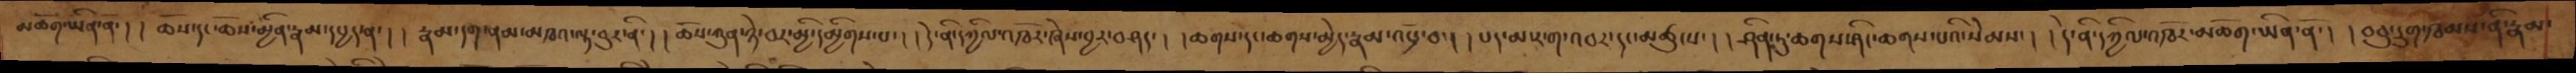མཆོག་ཡིན་ནོ་། །ཆོས་དང་ཆོས་མྱིན་རྣམ་དཔྱད་ན་། །རྣམ་དག་ནམ་མཁའ་ལྟ་བུར་ནི་། །ཆོས་ཀུན་ཉེ་བར་མྱི་དམྱིགས་པ་། །དེ་ནི་དཀྱིལ་འཁོར་ཞེས་བྱར་བཤད་། །ཆགས་དང་ཆགས་མྱེད་རྣམ་འཕྲོ་བ་། །པད་མ་ར་ག་འབར་དང་མཚུངས་། །ཤིན་ཏུ་ཆགས་ཤིང་ཆགས་པའི་སེམས་། །དེ་ནི་དཀྱིལ་འཁོར་མཆོག་ཡིན་ནོ་། །བཅུ་དྲུག་ཁམས་ནི་རྣམ་
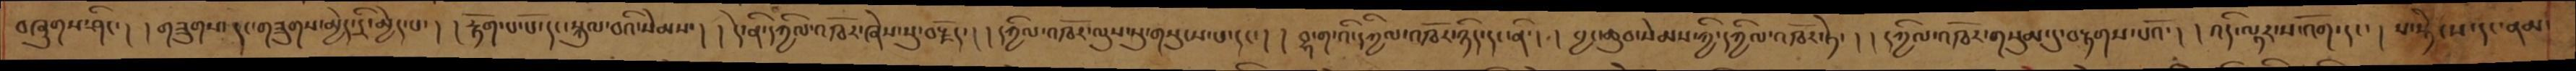བཞུགས་ཤིང་། །གཟུགས་དང་གཟུགས་མྱེད་དྲི་མྱེད་པ་། །རྟོག་པ་པོ་དང་སྐུལ་བའི་སེམས་། །དེ་ནི་དཀྱིལ་འཁོར་ཞེས་སུ་བརྗོད་། །དཀྱིལ་འཁོར་ལུས་སུ་གསུངས་པ་དང་། །བྷ་གའི་དཀྱིལ་འཁོར་ཉིད་དང་ནི་། །བྱང་ཆུབ་སེམས་ཀྱི་དཀྱིལ་འཁོར་སྟེ་། །དཀྱིལ་འཁོར་གསུམ་དུ་བརྟགས་པའོ་། །འདི་ལྟར་ས་འོག་དང་། ས་སྟེངས་དང་ནམ་
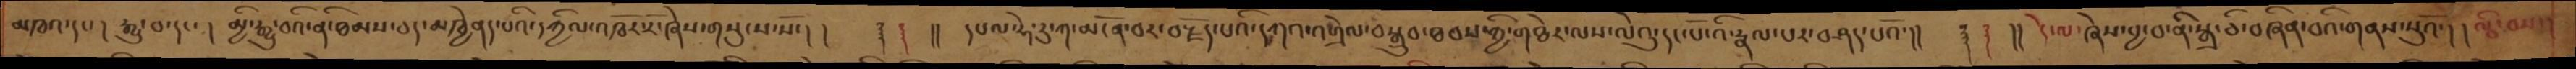མཁའ་དང་། རྒྱུ་བ་དང་། མྱི་རྒྱུ་བའི་ནི་ཐམས་ཅད་མཁྱེནད་པའི་དཀྱིལ་འཁོར་རོ་ཞེས་གསུངས་སོ་།། ࿑ ࿑ །། དཔལ་ཧེ་རུ་ཀ་མངོན་བར་བརྗོད་པའི་དཀའ་འགྲེལ་བསྒྲུབ་ཐབས་ཀྱི་གཐེར་ལས་ལེའུ་དང་པོ་འི་རྣལ་པར་བཤད་པའོ་།། ࿑ ࿑  །། དེ་ལ་ཞེས་བྱ་བ་ནི་སྒྲ་ཅི་བཞིན་བའི་གནས་སུའོ་། །ལྕི་བས་
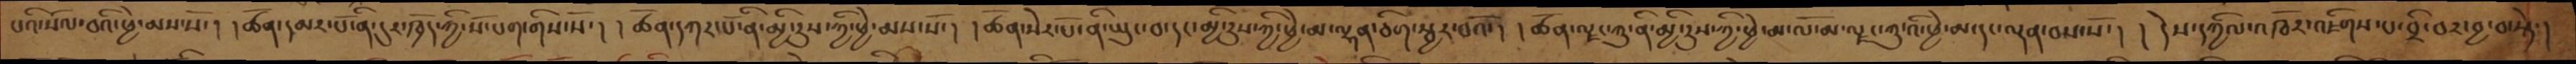པའི་སོལ་བའི་ཕྱེ་མས་སོ་། །ཚོན་དམར་པོ་ནི་དུར་ཁྲོད་ཀྱི་སོ་པག་གིས་སོ་། །ཚོན་དཀར་པོ་ནི་མྱི་རུས་ཀྱི་ཕྱེ་མས་སོ་། །ཚོན་སེར་པོ་ནི་ཡུང་བ་དང་མྱི་རུས་ཀྱི་ཕྱེ་མ་ལྷན་ཅིག་སྦྱར་བའོ་། །ཚོན་ལྗང་ཀུ་ནི་མྱི་རུས་ཀྱི་ཕྱེ་མ་ལོ་མ་ལྗང་ཀུ་འི་ཕྱེ་མ་དང་ལྡན་བས་སོ་། །དེས་དཀྱིལ་འཁོར་འཇིགས་པ་བྲི་བར་བྱ་བ་སྟེ་།
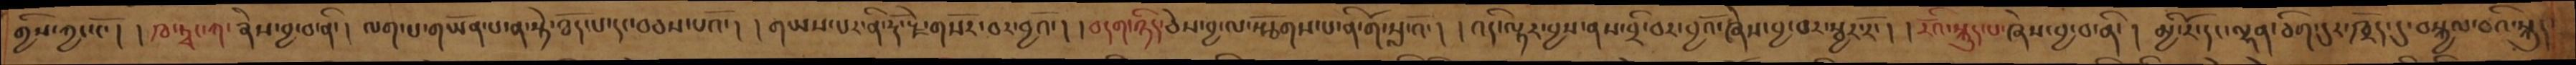གྱིས་ཀྱང་ངོ་། །ཁ་ཏྭང་ཀ་ཞེས་བྱ་བ་ནི་། ལག་པ་གཡོན་པ་ན་སྟེ་ཐོད་པ་དང་བཅས་པའོ་། །གཡས་པར་ནི་རྡོ་རྗེ་གསོར་བར་བྱའོ་། །བདག་ཉིད་ཅེས་བྱ་ལ་སྩོགས་པ་ནི་གོ་སླ་འོ་། །འདི་ལྟར་བྱས་ནས་བྲི་བར་བྱའོ་ཞེས་བྱ་བར་སྦྱར་རོ་། །རོའི་སྐུད་པ་ཞེས་བྱ་བ་ནི་། མྱི་རོ་དང་ལྷན་ཅིག་དུར་ཁྲོད་དུ་བསྐྱལ་བའི་སྐུད་
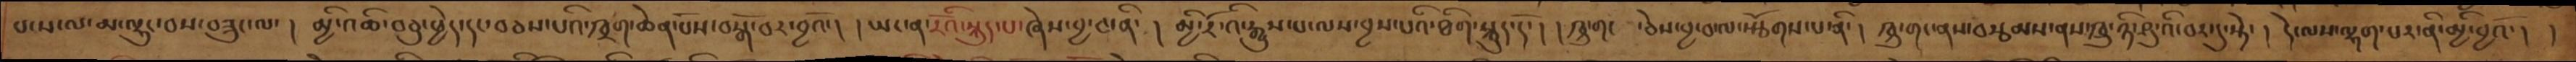པ་ས་ལ་མ་ལྷུང་བས་བཟུང་ལ་། མྱི་འཆི་བཅུ་ཕྱེད་དང་བཅས་པའི་ཁྲག་ཆེན་པོས་བསྒོ་བར་བྱའོ་། །ཡང་ན་རོའི་སྐུད་པ་ཞེས་བྱ་བ་ནི་། མྱི་རོ་འི་རྒྱུས་པ་ལས་བྱས་པའི་ཐིག་སྐུད་དོ་། །ཁྲུ་གང་ ཅེས་བྱ་བ་ལ་སྩོགས་པ་ནི་། ཁྲུ་གང་ནས་བརྩམས་ནས་ཁྲུ་ཉི་ཤུ་འི་བར་དུ་སྟེ་། དེ་ལས་ལྷག་པར་ནི་མྱི་བྱའོ་། །
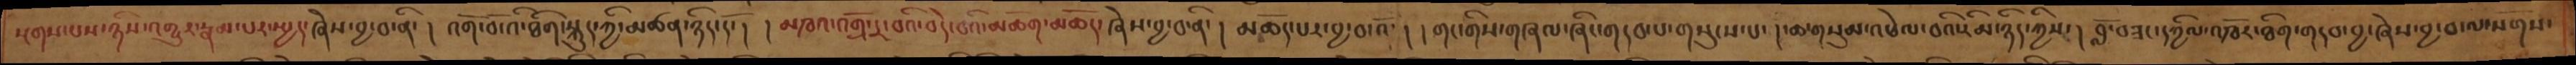སྔགས་པས་ཉིས་འགྱུར་རྣམ་པར་སྤྱད་ཞེས་བྱ་བ་ནི་། འགོ་བོ་འི་ཐིག་སྐུད་ཀྱི་མཚན་ཉིད་དོ་། །མཁའ་འགྲོ་དྲ་བའི་བདེ་བའི་མཆོག་མཆོད་ཞེས་བྱ་བ་ནི་། མཆོད་པར་བྱ་བ་འོ་། །གང་གིས་གཞལ་ཞིང་གདབ་པ་གསུངས་པ་ །་ཆ་གསུམ་འཕེལ་བའི་རིམ་ཉིད་ཀྱིས་། བློ་བཟང་དཀྱིལ་འཁོར་ཐིག་གདབ་བྱ་ཞེས་བྱ་བ་ལ་སོགས་
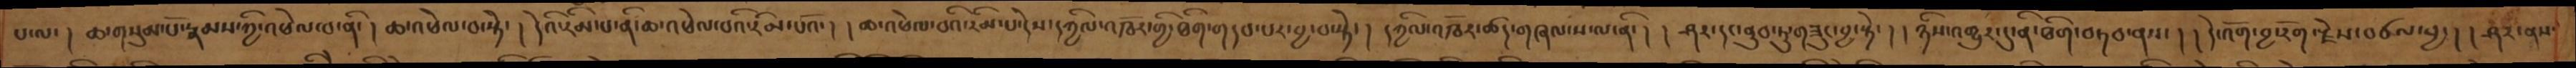པ་ལ་། ཆ་གསུམ་པོ་རྣམས་ཀྱི་འཕེལ་བ་ནི་། ཆ་འཕེལ་བ་སྟེ་། དེའི་རིམ་པ་ནི་ཆ་འཕེལ་བའི་རིམ་པའོ་། །ཆ་འཕེལ་བའི་རིམ་པ་དེས་དཀྱིལ་འཁོར་གྱི་ཐིག་གདབ་པར་བྱ་བ་སྟེ་་།  དཀྱིལ་འཁོར་ཚད་གཞལ་ས་ལ་ནི་། །ཤར་དང་ནུབ་ཏུ་གཟུང་བྱ་སྟེ་། །ཉིས་འགྱུར་དུ་ནི་ཐིག་བཏབ་ནས་། །དེ་འོག་བྱ་རོག་རྗེས་བཙལ་བྱ་། །ཤར་ནས་
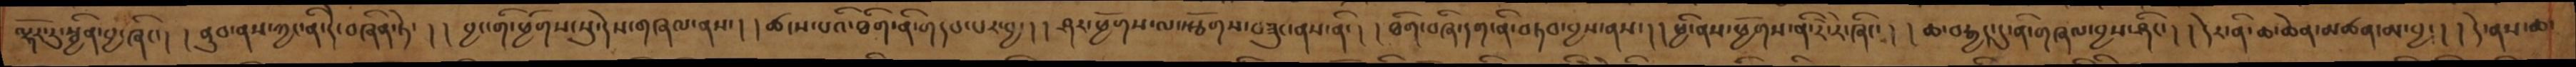ལྷོར་རུ་སྦྱིན་བྱ་ཞིང་།  ནུབ་ནས་ཀྱང་ནི་དེ་བཞིན་ཏེ་། །བྱང་གི་ཕྱོགས་སུ་དེས་གཞལ་ནས་། ཚངས་པའི་ཐིག་ནི་གདབ་པར་བྱ་། །ཤར་ཕྱོགས་ལ་སྩོགས་བཟུང་ནས་ནི་།  །ཐིག་བཞི་དག་ནི་བཏབ་བྱས་ནས་། །ཕྱི་ནས་ཕྱོགས་ནི་རེ་རེ་ཞིང་། །ཆ་བརྒྱད་དུ་ནི་གཞལ་བྱས་ཤིང་། །དེར་ནི་ཆ་ཆེན་མཚན་མ་བྱ་། །དེ་ནས་ཆ་
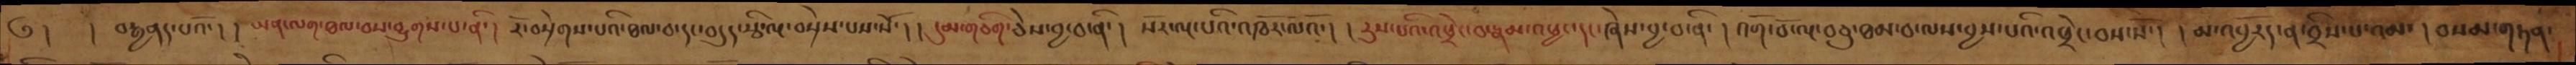༄།  །བརྒྱནད་པའོ་། ཡན་ལག་ཐལ་བས་བྱུགས་པ་ནི་། རོ་བསྲེགས་པའི་ཐལ་བ་དང་བདུད་རྩི་ལྔ་བསྲེས་པས་སོ་། །དུམ་གཅིག་ཅེས་བྱ་བ་ནི། སོར་ལྔ་པའི་འཁོར་ལོའོ་། །རུས་པའི་འཕྲེང་བ་རྣམ་འཕྱང་དང་ཞེས་བྱ་བ་ནི་། འགོ་བོ་ལྔ་བཅུ་ཐམ་བ་ལས་བྱས་པའི་འཕྲེང་བས་སོ་། །མ་འབྱོརད་ན་བྲིས་པ་འམ་། བསམ་གཏན་
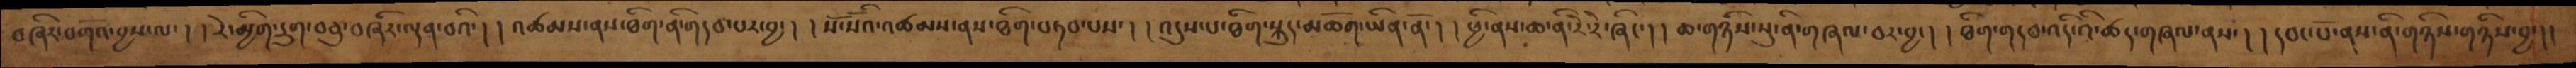བཞིར་བགོའ་བྱས་ལ་། །རེ་མྱིག་དྲུག་བཅུ་བཞིར་ལྡན་བའི་། །འཚམས་ནས་ཐིག་ནི་གདབ་པར་བྱ་། །སོ་སོའི་འཚམས་ནས་ཐིག་བཏབ་པས་། །འདུས་པ་ཐིག་སྐུད་མཆོག་ཡིན་ནོ་། །ཕྱི་ནས་ཆ་ནི་རེ་རེ་ཞིང་། །ཆ་གཉིས་སུ་ནི་གཞལ་བར་བྱ་། །ཐིག་གདབ་འདི་འི་ཚད་གཞལ་ནས་། །དབང་པོ་ནས་ནི་གཉིས་གཉིས་བྱ་།།
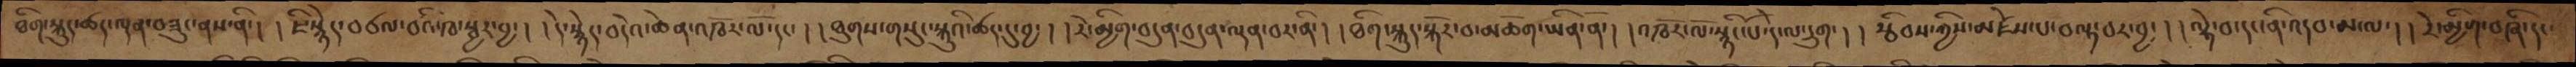ཐིག་སྐུད་ཚད་ལྡན་བཟུང་ནས་ནི་། །ཇི་སྙེད་བཙལ་བའི་ཁ་སྦྱར་བྱ་། །དེ་སྙེད་བདེའ་ཆེན་འཁོར་ལོ་དང་། །ཐུགས་གསུང་སྐུའི་ཚད་དུ་བྱ་། །རེ་མྱིག་བདུན་བདུན་ལྡན་བར་ནི་། །ཐིག་སྐུད་སྐོར་བ་མཆོག་ཡིན་ནོ་། །འཁོར་ལོ་སྙིང་པོ་དེ་ལ་དྲུག་། །རྩིབས་ཀྱིས་མཛེས་པ་བལྟ་བར་བྱ་། །ལྟེ་བ་དང་ནི་འདབ་མ་ལ་། །རེ་མྱིག་བཞི་དང་
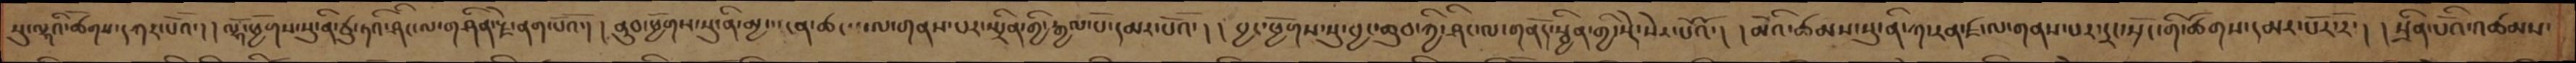སུ་ལྷའི་ཚོགས་དཀར་པོའོ་། །ལྷ་ཕྱོགས་སུ་ནི་ཙུ་ཏའི་ཤིང་ལ་གཤིན་རྗེ་ནག་པོའོ་། །ནུབ་ཕྱོགས་སུ་ནི་མྱ་་་ངན་ཚངས་ལ་གནས་པར་སྤྲིན་གྱི་རྒྱལ་པོ་དམར་པོའོ་། །བྱང་ཕྱོགས་སུ་བྱང་ཆུབ་ཀྱི་ཤིང་ལ་གནོད་སྦྱིན་གྱི་སྡེ་སེར་པོའོ་། །མེའི་ཚམས་སུ་ནི་ཀ་རན་ཛ་ལ་གནས་པར་དྲང་སྲོང་གི་ཚོགས་དམར་པོར་རོ་། །སྲིན་པོའི་འཚམས་
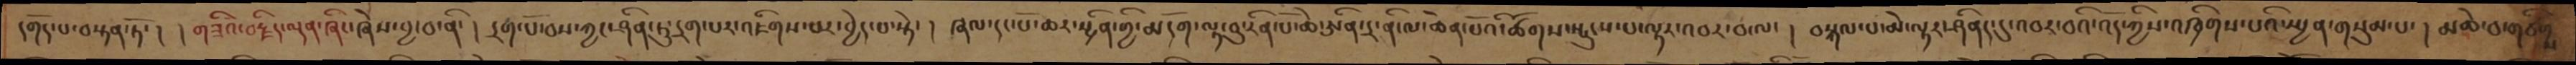དགོད་པ་བསྟན་ཏོ་། །གཟིའ་བརྗེད་ལྡན་ཞིང་ཞེས་བྱ་བ་ནི་། དྲག་པོ་བས་ཀྱང་ཤིན་ཏུ་དྲག་པར་འཇིགས་པར་བྱེད་པ་སྟེ་། ཞལ་དང་པོ་ཆར་སྤྲིན་གྱི་མདོག་ལྟ་བུ་རིན་པོ་ཆེ་ཨིན་དྲ་ནི་ལ་ཆེན་པོའི་ཚོགས་སྤུངས་པ་ལྟར་འབར་བ་ལ་། བསྐལ་པ་མེ་ལྟར་ཤིནད་དུ་འབར་བའི་འོད་ཀྱིས་འཁྲིགས་པའི་སྤྱན་གསུམ་པ་། མཆེ་བ་གཙིག་
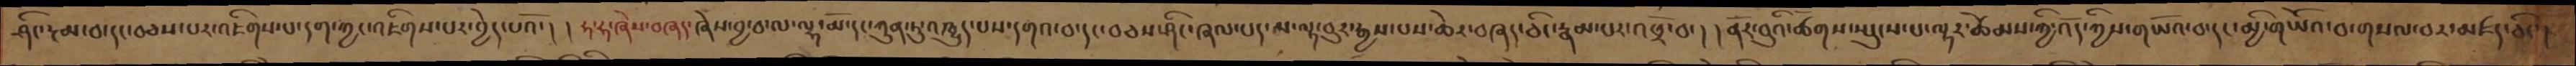ཤིང་རྔམ་བ་དང་བཅས་པར་འཇིགས་པ་དག་ཀྱང་འཇིགས་པར་བྱེད་པའོ་། །ཧ་ཧ་ཞེས་བཞད་ཞེས་བྱ་བ་ལ་ལྷ་མོ་དང་ཀུན་ཏུ་འཁྱུད་པས་དགའ་བ་དང་བཅས་ཤིང་ཞལ་པད་མ་ལྟ་བུར་རྒྱསས་པས་ཆེར་བཞད་ཅིང་རྣམ་པར་འཕྲོ་བ་། །ནོར་བུའི་ཚོགས་སྤུངས་པ་ལྟར་ཚེམས་ཀྱི་འོད་ཀྱིས་གཡོའ་བ་དང་མྱི་གཡོའ་བ་གསལ་བར་མཛད་ཅིང་།
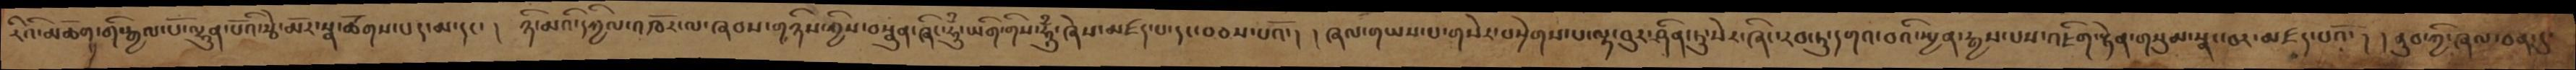རིའི་མཆོག་གི་རྒྱལ་པོ་ལྷུན་པོའི་རྩེ་མོར་སྣ་ཚོགས་པད་མ་དང་། ཉི་མའི་དཀྱིལ་འཁོར་ལ་ཞབས་གཉིས་ཀྱིས་བསྣུན་ཞིང་ཧཱུྃ་ཡིག་གིས་ཧཱུྃ་ཞེས་མཛད་པ་དང་བཅས་པའོ་། །ཞལ་གཡས་པ་གསེར་བསྲེགས་པ་ལྟ་བུར་ཤིན་ཏུ་སེར་ཞིང་རབ་ཏུ་དགའ་བའི་སྤྱན་རྒྱས་པས་འཇིག་རྟེན་གསུམ་སྣང་བར་མཛད་པའོ་། །ནུབ་ཀྱི་ཞལ་ཅན་དུ་
